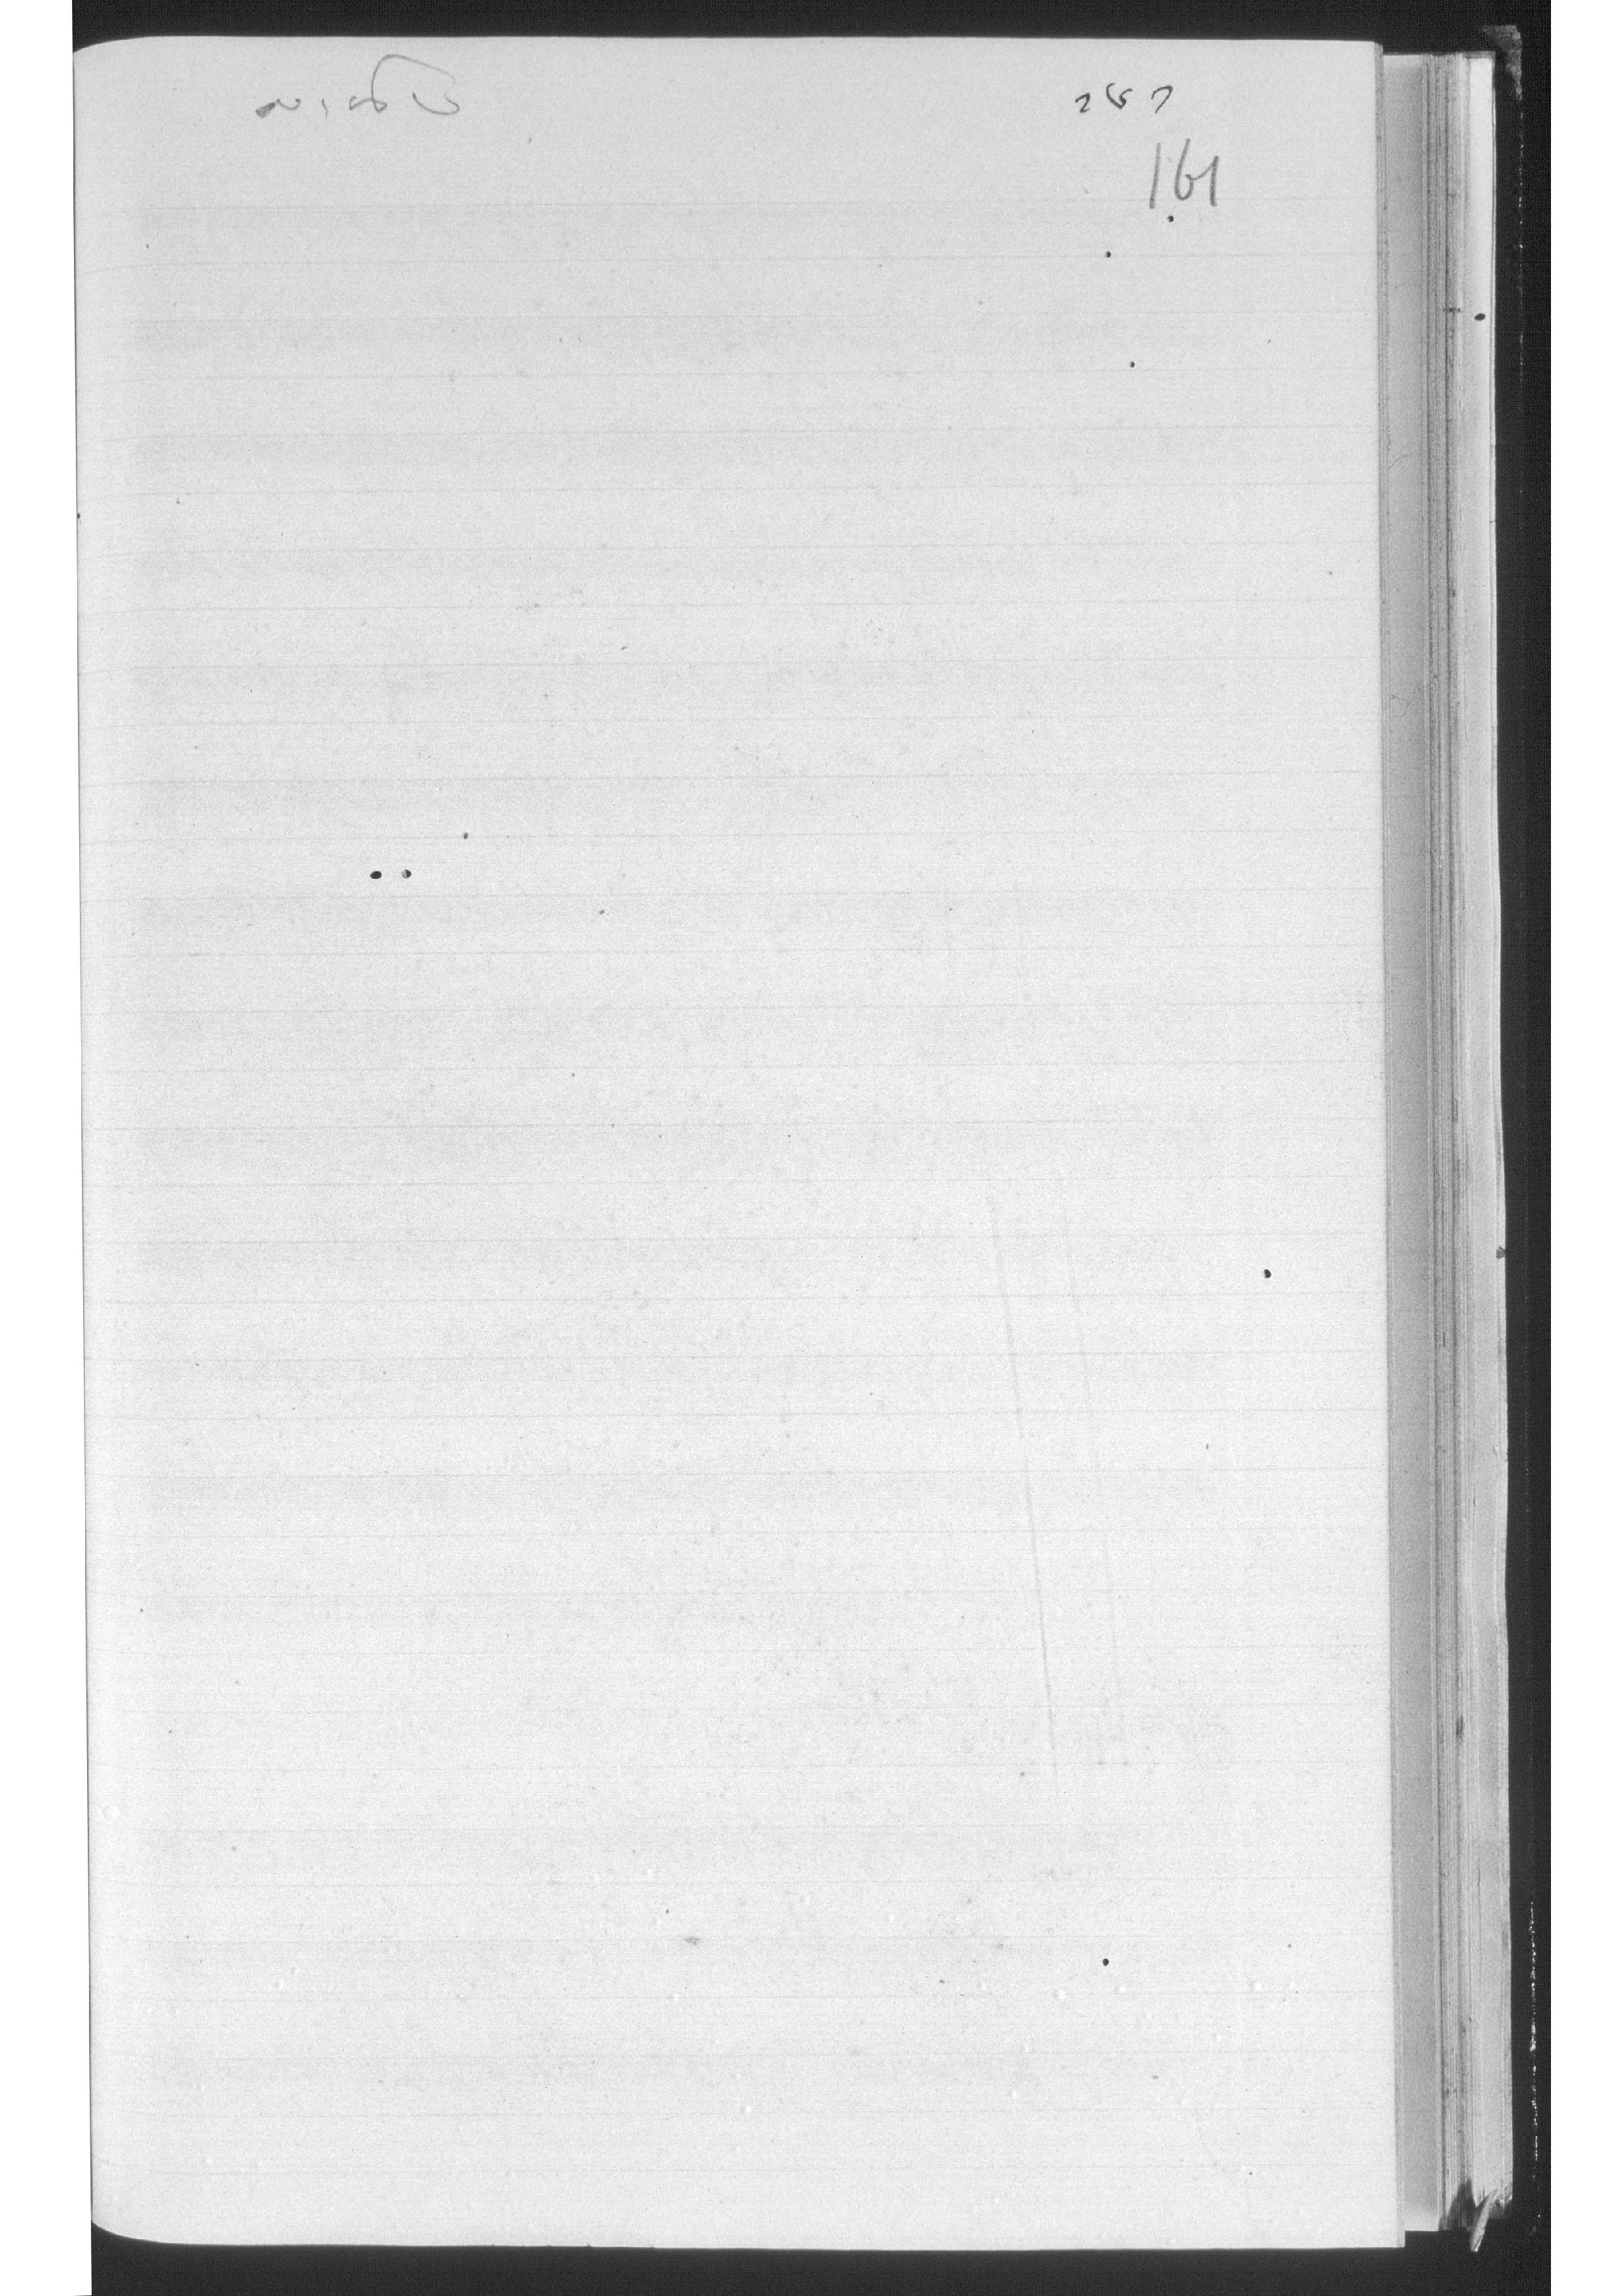༡༦༡
